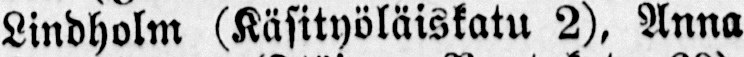Lindholm (Käsityöläiskatu 2), Anna-
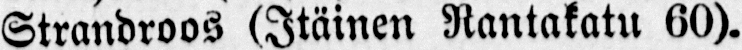Strandroos (Itäinen Rantakatu 60).
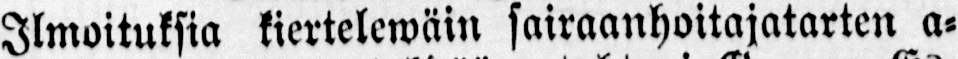Ilmoituksia kiertelewäin sairaanhoitajatarten a-
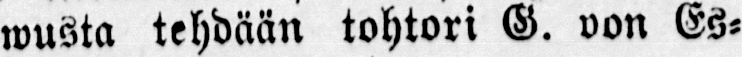wusta tehdään tohtori G. von Es-
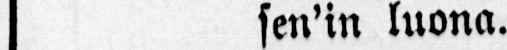sen’in luona.
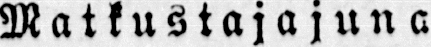Matkustajajuna
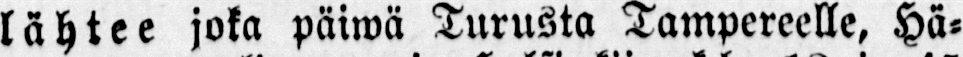lähtee joka päiwä Turusta Tampereelle, Hä-
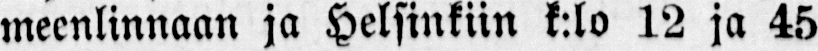meenlinnaan ja Helsinkiin k:lo 12 ja 45
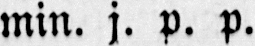min. j. p. p.
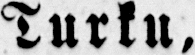Turku,
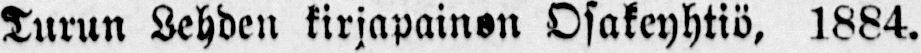Turun Lehden kirjapainon Osakeyhtiö, 1884.
